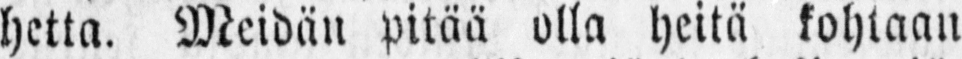hetta. Meidän pitää olla heitä kohtaan
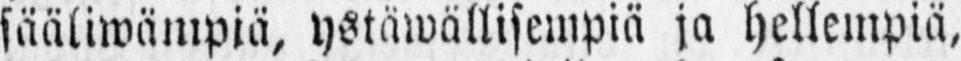sääliwämpiä, ystäwällisempiä ja hellempiä,
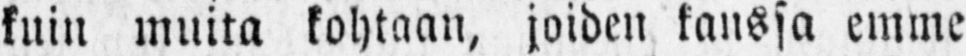kuin muita kohtaan, joiden kanssa emme
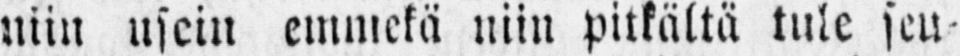niin usein emmekä niin pitkältä tule seu-
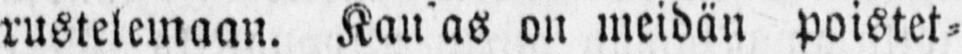rustelemaan. Kau'as on meidän poistet-
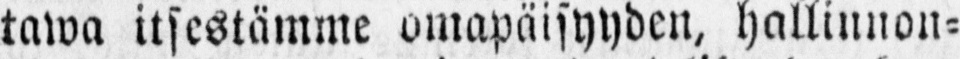tawa itsestämme omapäisyyden, hallinnon-
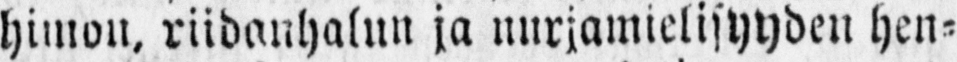himon. riidanhalun ja nurjamielisyyden hen-
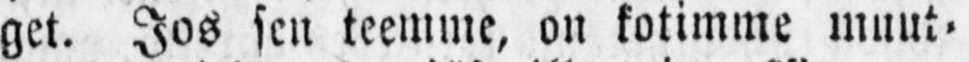get. Jos sen teemme, on kotimme muut-
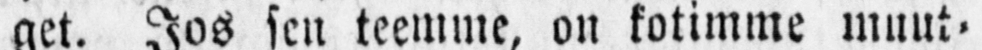tuwa kaikille sen jäsenille taiwaaksi maan
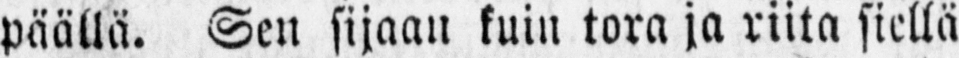päällä. Sen sijaan kuin tora ja riita siellä
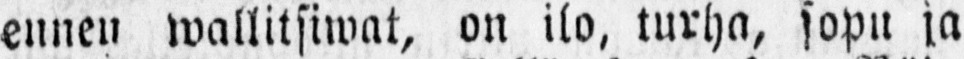ennen wallitsiwat, on ilo, turha, sopu ja
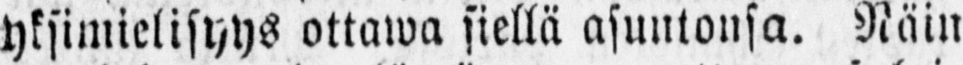yksimielisyys ottawa siellä asuntonsa. Näin
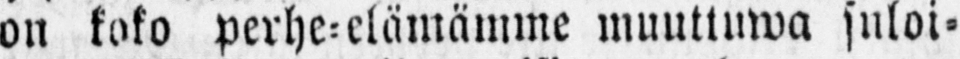on koko perhe-elämämme muuttuwa suloi-
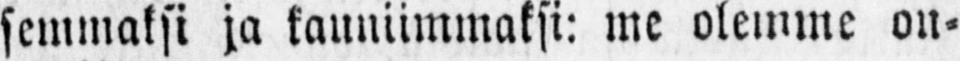semmaksi ja kauniimmaksi: me olemme on-
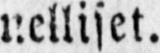nelliset.
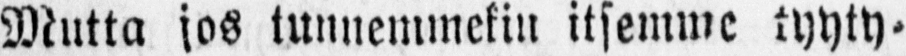Mutta jos tunnemmekin itsemme tyyty-
